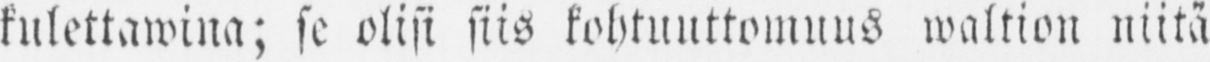kulettawina; se olisi siis kohtuuttomuus waltion niitä
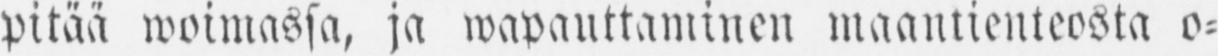pitää woimassa, ja wapauttaminen maantienteosta o-
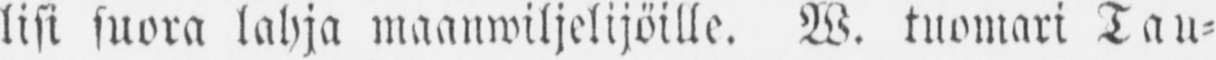lisi suora lahja maanwiljelijöille. W. tuomari Tau-
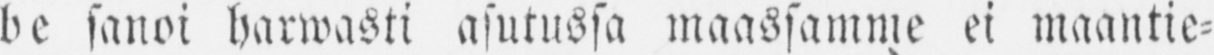be sanoi harwasti asutussa maassamme ei maantie-
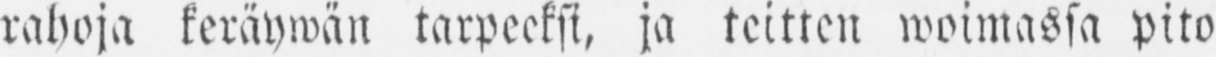rahoja keräywän tarpeeksi, ja teitten woimassa pito
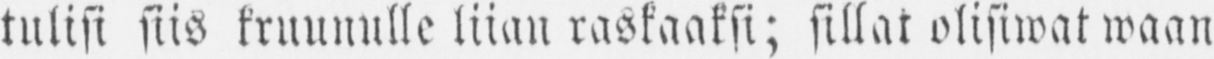tulisi siis kruunulle liian raskaaksi; sillat olisiwat waan
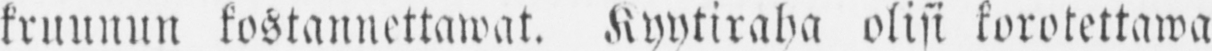kruunun kostannettawat. Kyytiraha olisi korotettawa
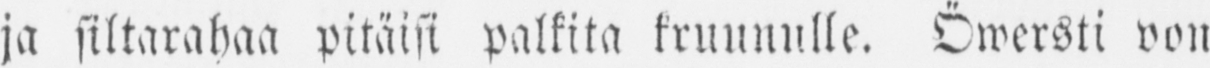ja siltarahaa pitäisi palkita kruunulle, Öwersti von
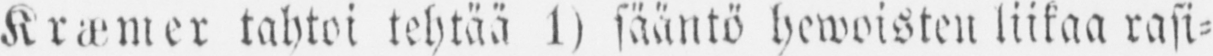Kræmer tahtoi tehtää l) sääntö hewoisten liikaa rasi-
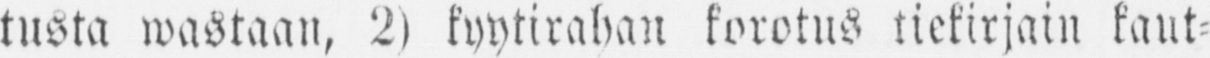tusta wastaan, 2) kyytirahan korotus tiekirjain kaut-
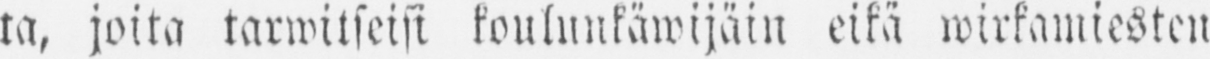ta, joita tarwitseisi koulunkäwijäin eikä wirkamiesten
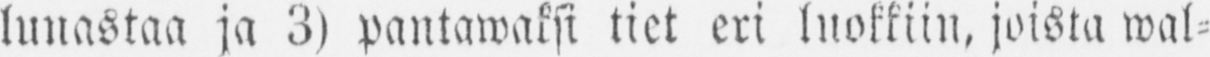lunastaa ja 3) pantawaksi tiet eri luokkiin, joista wal-
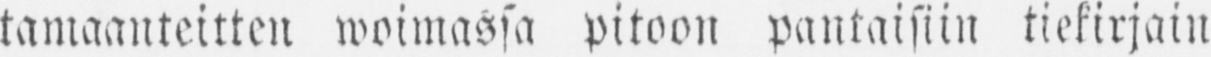tamaanteitten woimassa pitoon pantaisiin tiekirjain
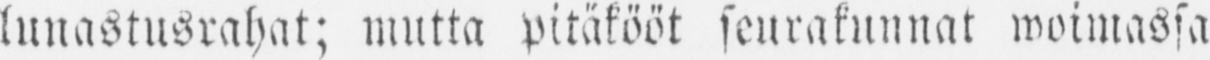lunastusrahat; mutta pitäkööt seurakunnat woimassa
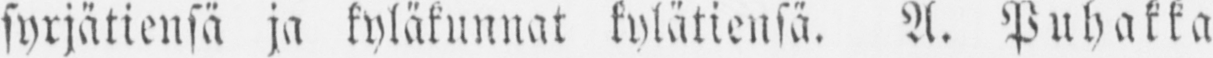syrjätiensä ja kyläkunnat kylätiensä. A. Puhakka
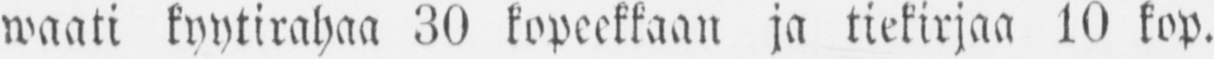waati kyytirahaa 30 kopeekkaan ja tiekirjaa 10 kop.
